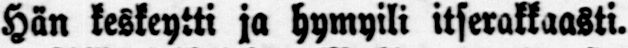Hän keskeytti ja hymyili itserakkaasti.
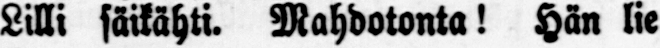Lilli säikähti. Mahdotonta! Hän lie
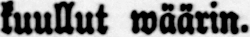kuullut wäärin.
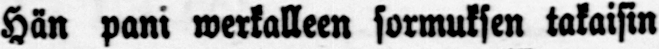Hän pani werkalleen sormuksen takaisin
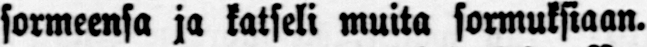sormeensa ja katseli muita sormuksiaan.
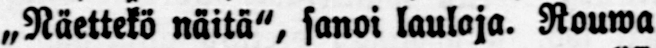„Näettekö näitä", sanoi laulaja. Rouwa
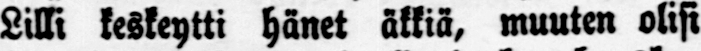Lilli keskeytti hänet äkkiä, muuten olisi
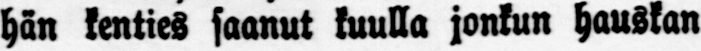hän kenties saanut kuulla jonkun hauskan
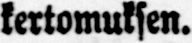kertomuksen.
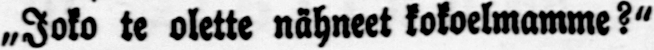„Joko te olette nähneet kokoelmamme?"
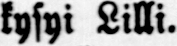kysyi Lilli.
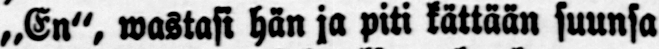„En", wastasi hän ja piti kättään suunsa
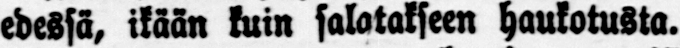edessä, ikään kuin salatakseen haukotusta.
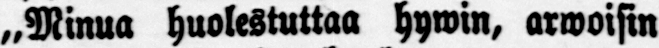„Minua huolestuttaa hywin, arwoisin
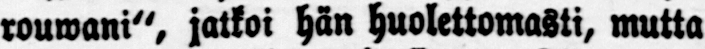rouwani", jatkoi hän huolettomasti, mutta
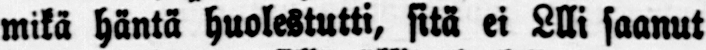mikä häntä huolestutti, sitä ei Llli saanut
